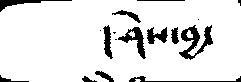།ཤེས་བྱ་
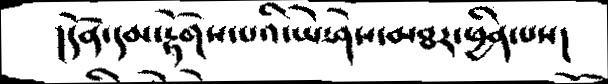།དོན་དམ་རྟོགས་པའི་ཡེ་ཤེས་མཐར་ཕྱིན་པས།
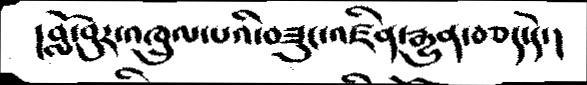།བློ་བུར་འཁྲུལ་པའི་བཟུང་འཛིན་རྒྱུན་བཅད་དེ་།
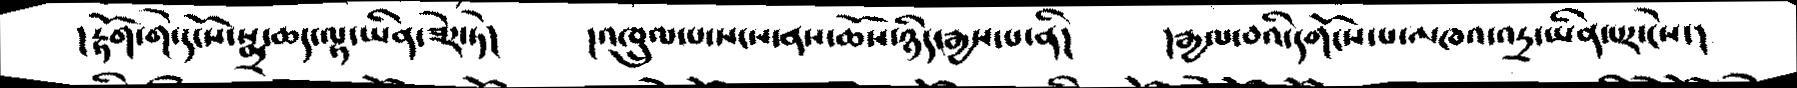།རྟོག་གེ་དངོས་སྨྲ་ཆད་ལྟ་ཡིན་ཟེར་ཏེ།   །འཁྲུལ་པ་སངས་ནས་ཆོས་ཉིད་རྒྱས་པ་ནི།   །རྒྱལ་བའི་དགོངས་པ་མཁའ་འདྲ་ཡིན་པར་ངེས་།
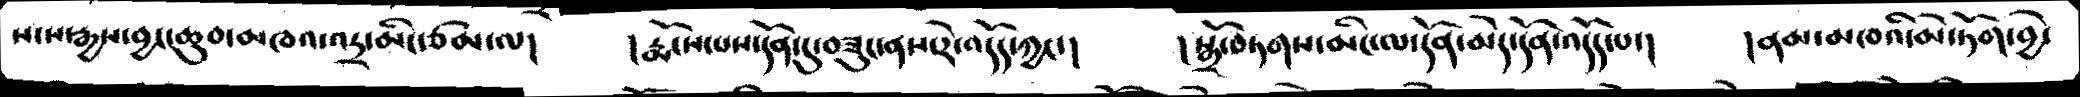སངས་རྒྱས་བྱང་ཆུབ་མཁའ་འདྲ་མིང་ཙམ་ལ།   །རྨོངས་པས་དོན་དུ་བཟུང་ནས་རེ་འདོད་ཀྱང་།    །སྒྲོ་བཏགས་མིང་ལ་དོན་མེད་དོན་འདོད་པ་།   །ནམ་མཁའི་མེ་ཏོག་བྱེ་
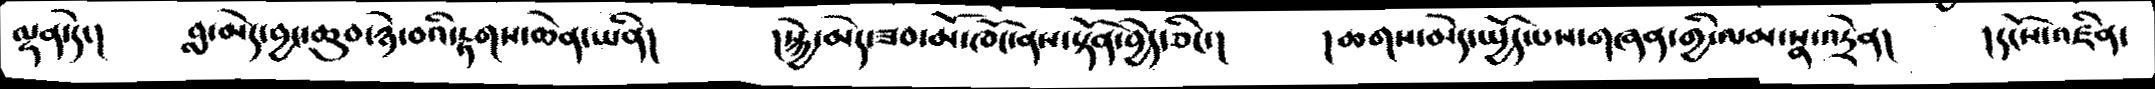ལྡན་དེ་།   བླ་མེད་བྱང་ཆུབ་ཉེ་བའི་རྟགས་ཆེན་ཡིན།     །སྐྱེ་མེད་ཟབ་མོ་ཁོང་ནས་སྟོན་བྱེད་ཅིང་།    །ཆགས་མེད་སྤྱོད་པས་གཞན་གྱི་ལམ་སྣ་འདྲེན།   །དངོས་འཛིན་
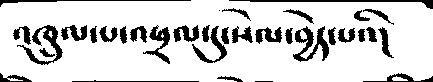འཁྲུལ་པ་འཕྲལ་དུ་སེལ་བྱེད་པའི།
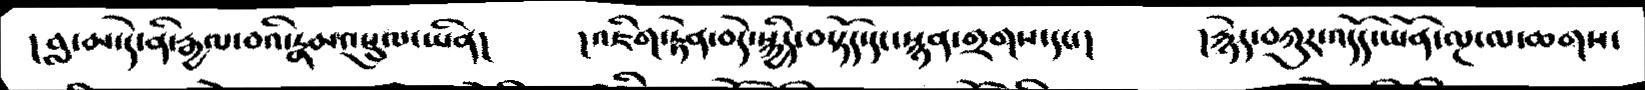།བླ་མ་དེ་ནི་རྒྱལ་བའི་རྣམ་འཕྲུལ་ཡིན།   །འཇིག་རྟེན་བདེ་སྐྱིད་བསྟོད་དང་སྙན་གྲགས་དང་།   །རྙེད་བཀུར་འདོད་ཡོན་ལྔ་ལ་ཆགས་
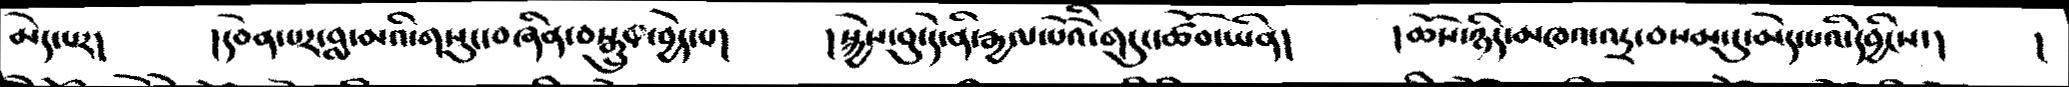མེད་པར།   །དབེན་པར་བླ་མའི་གསུང་བཞིན་བསྒྲུབ་བྱེད་པ།    །སྐྱེས་བུ་དེ་ནི་རྒྱལ་པོའི་གདུང་ཚོབ་ཡིན།    །ཆོས་ཉིད་མཁའ་འདྲ་བསམ་དུ་མེད་པའི་བྱིངས་།   །
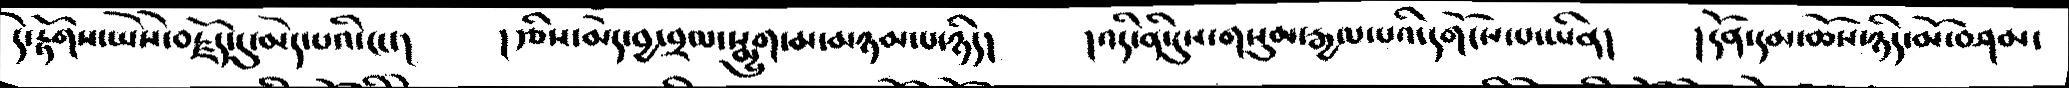དེ་རྟོགས་ཡཻས་བརྗོད་དུ་མེད་པའི་ངང་།   །རྩིས་མེད་བྱ་བྲལ་སྨྱུག་མ་མཉམ་པ་ཉིད།   །འདི་ནི་དུས་གསུམ་རྒྱལ་པའི་དགོངས་པ་ཡིན།   །དོན་དམ་ཆོས་ཉིད་མོ་བཤམ་
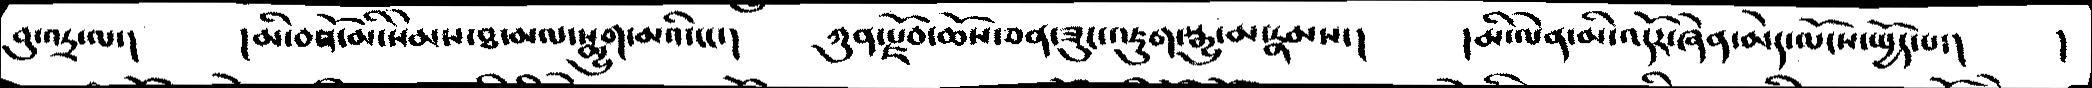བུ་འདྲ་ལ།   །མི་བཟོ་མི་སེམས་ཐ་མལ་སྨྱུག་མའི་ངང་།   ཀུན་རྫོབ་ཆོས་ཅན་ཟུང་འཇུག་སྒྱུ་མ་རྣམས་།   །མི་ལེན་མི་འདོར་ཞེན་མེད་ལོངས་སྤྱོད་པ་།   །
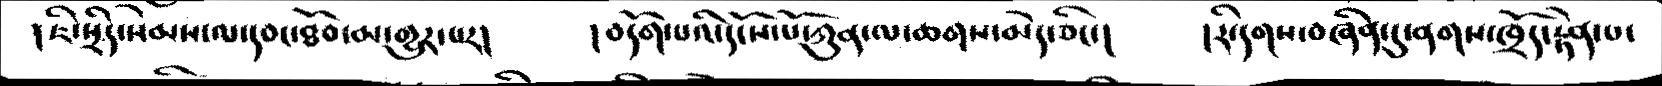།ཇི་སྲིད་སེམས་ལ་དབང་ཐོབ་མ་གྱུར་པར།   །བདོག་པའི་དངོས་པོ་ཀུན་ལ་ཆགས་མེད་ཅིང་།   །རི་དགས་བཞིན་དུ་ནགས་ཁྲོད་རྟེན་པ་
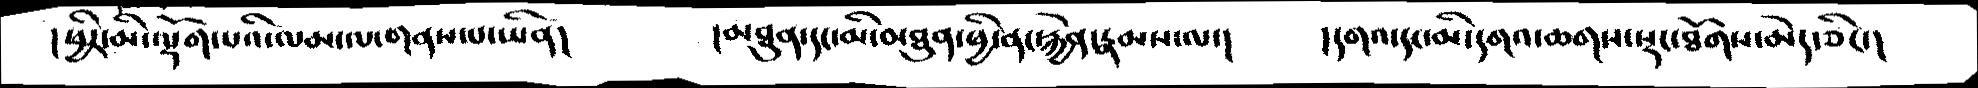།ཕྱིར་མི་ལྡོག་པའི་ལམ་ལ་གནས་པ་ཡིན།   །མཐུན་དང་མི་མཐུན་ཕྱི་ནང་རྐྱེན་རྣམས་ལ་།   །དགའ་དང་མི་དགའ་ཆགས་སྡང་ཐོགས་མེད་ཅིང་།
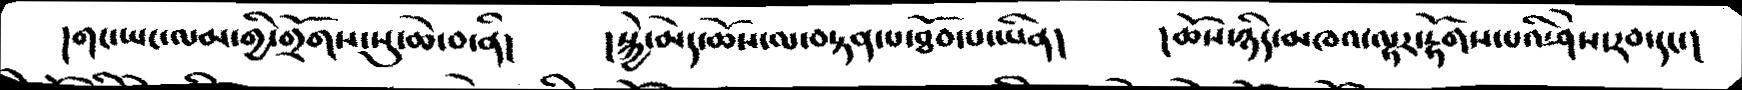།གང་ཡང་ལམ་གྱི་གྲོགས་སུ་ཆེ་བ་ནི།   །སྐྱེ་མེད་ཆོས་ལ་བསྟན་པ་ཐོབ་པ་ཡིན།   །ཆོས་ཉིད་མཁའ་ལྟར་རྟོགས་པའི་ཤེས་རབ་དང་།
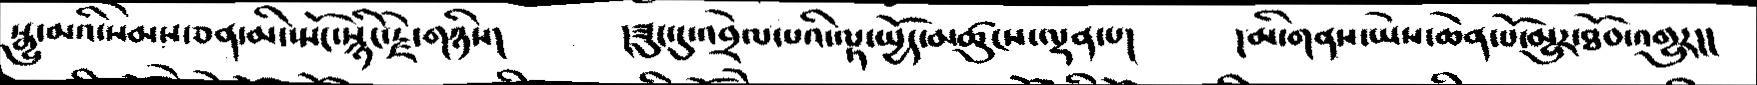སྒྱུ་མའི་སེམས་ཅན་མི་སྤོང་སྙིང་རྗེ་གཉིས།   །ཟུང་དུ་འབྲེལ་པའི་ལྟ་སྤྱོད་མཚུངས་ལྡན་པ།   །མི་གནས་ཡེས་ཆེན་པོ་མྱུར་ཐོབ་འགྱུར།།
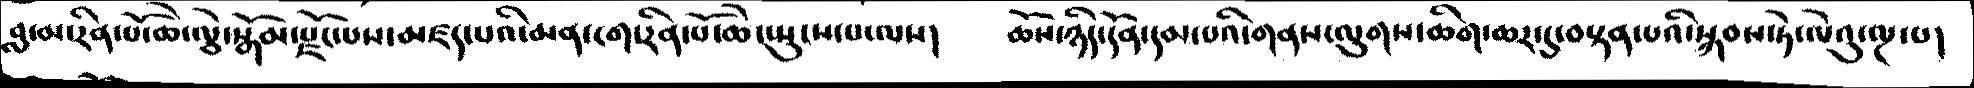བླ་མ་རིན་པོ་ཆེ་ལྕེ་སྒོམ་རྫོང་པས་མཛད་པའི་མན་ངག་རིན་པོ་ཆེ་སྤུངས་པ་ལས།   ཆོས་ཉིད་དོན་དམ་པའི་གནས་ལུགས་ཆིག་ཆར་དུ་བསྟན་པའི་སྐབས་ཏེ་ལེའུ་ལྔ་པ།
